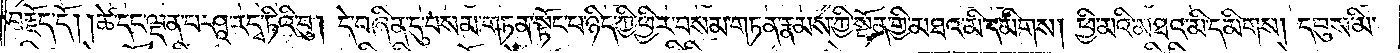བརྗོད་དོ། །ཚེ་དང་ལྡན་པ་ཤཱ་ར་དྭ་ཏིའི་བུ། དེ་བཞིན་དུ་བསམ་གཏན་སྟོང་པ་ཉིད་ཀྱི་ཕྱིར་བསམ་གཏན་རྣམས་ཀྱི་སྔོན་གྱི་མཐའ་མི་དམིགས། ཕྱི་མའི་མཐའ་མི་དམིགས། དབུས་མི་
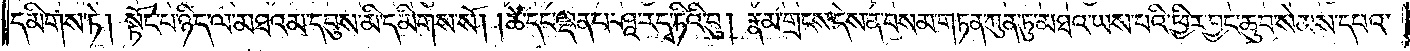དམིགས་ཏེ། སྟོང་པ་ཉིད་ལ་མཐའམ་དབུས་མི་དམིགས་སོ། །ཚེ་དང་ལྡན་པ་ཤཱ་ར་དྭ་ཏིའི་བུ། རྣམ་གྲངས་དེས་ན་བསམ་གཏན་ཀུན་ཏུ་མཐའ་ཡས་པའི་ཕྱིར་བྱང་ཆུབ་སེམས་དཔའ་
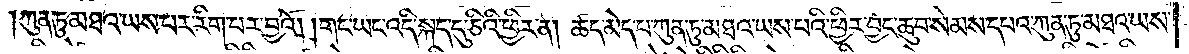ཀུན་ཏུ་མཐའ་ཡས་པར་རིག་པར་བྱའོ། །གང་ཡང་འདི་སྐད་དུ་ཅིའི་ཕྱིར་ན། ཚད་མེད་པ་ཀུན་ཏུ་མཐའ་ཡས་པའི་ཕྱིར་བྱང་ཆུབ་སེམས་དཔའ་ཀུན་ཏུ་མཐའ་ཡས་
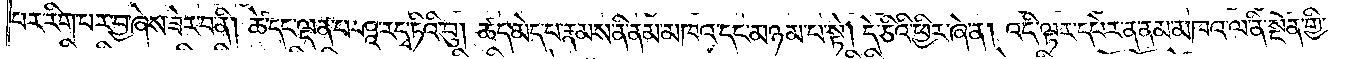པར་རིག་པར་བྱ་ཞེས་ཟེར་བ་ནི། ཚེ་དང་ལྡན་པ་ཤཱ་ར་དྭ་ཏིའི་བུ། ཚད་མེད་པ་རྣམས་ནི་ནམ་མཁའ་དང་མཉམ་པ་སྟེ། དེ་ཅིའི་ཕྱིར་ཞེ་ན། འདི་ལྟར་དཔེར་ན་ནམ་མཁའ་ལ་ནི་སྔོན་གྱི་
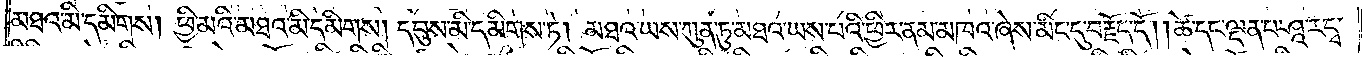མཐའ་མི་དམིགས། ཕྱི་མའི་མཐའ་མི་དམིགས། དབུས་མི་དམིགས་ཏེ། མཐའ་ཡས་ཀུན་ཏུ་མཐའ་ཡས་པའི་ཕྱིར་ནམ་མཁའ་ཞེས་མིང་དུ་བརྗོད་དོ། །ཚེ་དང་ལྡན་པ་ཤཱ་ར་དྭ་
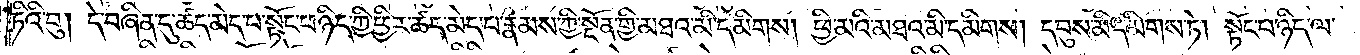ཏིའི་བུ། དེ་བཞིན་དུ་ཚད་མེད་པ་སྟོང་པ་ཉིད་ཀྱི་ཕྱིར་ཚད་མེད་པ་རྣམས་ཀྱི་སྔོན་གྱི་མཐའ་མི་དམིགས། ཕྱི་མའི་མཐའ་མི་དམིགས། དབུས་མི་དམིགས་ཏེ། སྟོང་པ་ཉིད་ལ་
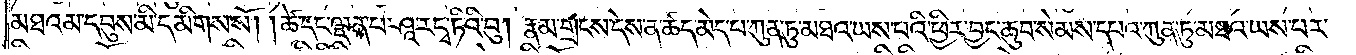མཐའམ་དབུས་མི་དམིགས་སོ། །ཚེ་དང་ལྡན་པ་ཤཱ་ར་དྭ་ཏིའི་བུ། རྣམ་གྲངས་དེས་ན་ཚད་མེད་པ་ཀུན་ཏུ་མཐའ་ཡས་པའི་ཕྱིར་བྱང་ཆུབ་སེམས་དཔའ་ཀུན་ཏུ་མཐའ་ཡས་པར་
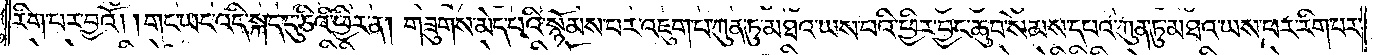རིག་པར་བྱའོ། །གང་ཡང་འདི་སྐད་དུ་ཅིའི་ཕྱིར་ན། གཟུགས་མེད་པའི་སྙོམས་པར་འཇུག་པ་ཀུན་ཏུ་མཐའ་ཡས་པའི་ཕྱིར་བྱང་ཆུབ་སེམས་དཔའ་ཀུན་ཏུ་མཐའ་ཡས་པར་རིག་པར་
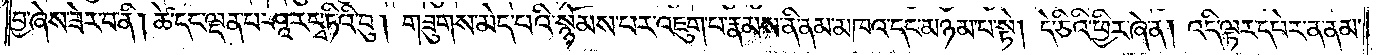བྱ་ཞེས་ཟེར་བ་ནི། ཚེ་དང་ལྡན་པ་ཤཱ་ར་དྭ་ཏིའི་བུ། གཟུགས་མེད་པའི་སྙོམས་པར་འཇུག་པ་རྣམས་ནི་ནམ་མཁའ་དང་མཉམ་པ་སྟེ། དེ་ཅིའི་ཕྱིར་ཞེ་ན། འདི་ལྟར་དཔེར་ན་ནམ་
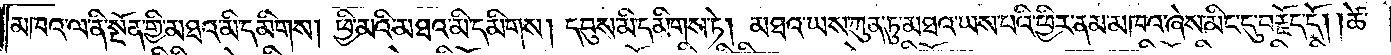མཁའ་ལ་ནི་སྔོན་གྱི་མཐའ་མི་དམིགས། ཕྱི་མའི་མཐའ་མི་དམིགས། དབུས་མི་དམིགས་ཏེ། མཐའ་ཡས་ཀུན་ཏུ་མཐའ་ཡས་པའི་ཕྱིར་ནམ་མཁའ་ཞེས་མིང་དུ་བརྗོད་དོ། །ཚེ་
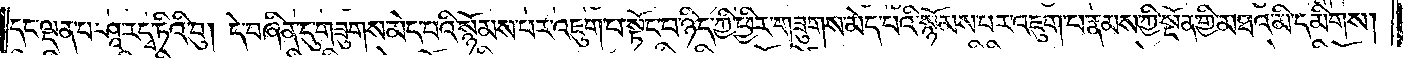དང་ལྡན་པ་ཤཱ་ར་དྭ་ཏིའི་བུ། དེ་བཞིན་དུ་གཟུགས་མེད་པའི་སྙོམས་པར་འཇུག་པ་སྟོང་པ་ཉིད་ཀྱི་ཕྱིར་གཟུགས་མེད་པའི་སྙོམས་པར་འཇུག་པ་རྣམས་ཀྱི་སྔོན་གྱི་མཐའ་མི་དམིགས།
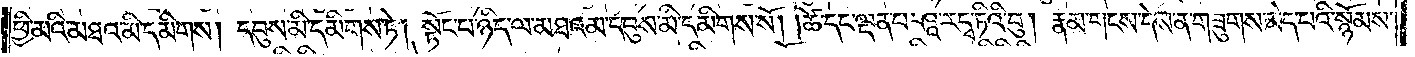ཕྱི་མའི་མཐའ་མི་དམིགས། དབུས་མི་དམིགས་ཏེ། སྟོང་པ་ཉིད་ལ་མཐའམ་དབུས་མི་དམིགས་སོ། །ཚེ་དང་ལྡན་པ་ཤཱ་ར་དྭ་ཏིའི་བུ། རྣམ་གྲངས་དེས་ན་གཟུགས་མེད་པའི་སྙོམས་
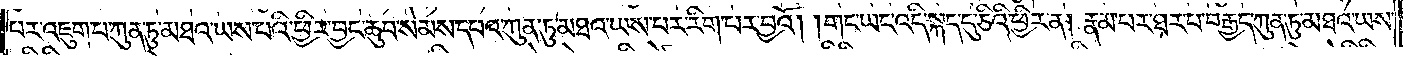པར་འཇུག་པ་ཀུན་ཏུ་མཐའ་ཡས་པའི་ཕྱིར་བྱང་ཆུབ་སེམས་དཔའ་ཀུན་ཏུ་མཐའ་ཡས་པར་རིག་པར་བྱའོ། །གང་ཡང་འདི་སྐད་དུ་ཅིའི་ཕྱིར་ན། རྣམ་པར་ཐར་པ་བརྒྱད་ཀུན་ཏུ་མཐའ་ཡས་
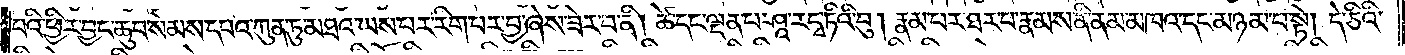པའི་ཕྱིར་བྱང་ཆུབ་སེམས་དཔའ་ཀུན་ཏུ་མཐའ་ཡས་པར་རིག་པར་བྱ་ཞེས་ཟེར་བ་ནི། ཚེ་དང་ལྡན་པ་ཤཱ་ར་དྭ་ཏིའི་བུ། རྣམ་པར་ཐར་པ་རྣམས་ནི་ནམ་མཁའ་དང་མཉམ་པ་སྟེ། དེ་ཅིའི་
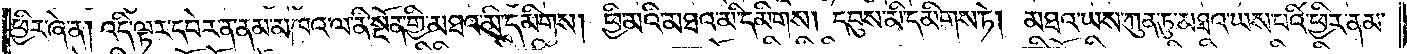ཕྱིར་ཞེ་ན། འདི་ལྟར་དཔེར་ན་ནམ་མཁའ་ལ་ནི་སྔོན་གྱི་མཐའ་མི་དམིགས། ཕྱི་མའི་མཐའ་མི་དམིགས། དབུས་མི་དམིགས་ཏེ། མཐའ་ཡས་ཀུན་ཏུ་མཐའ་ཡས་པའི་ཕྱིར་ནམ་
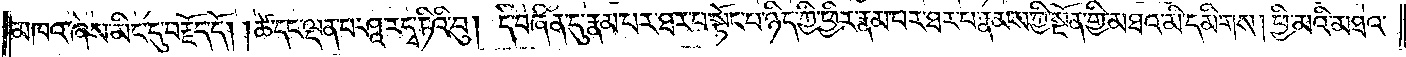མཁའ་ཞེས་མིང་དུ་བརྗོད་དོ། །ཚེ་དང་ལྡན་པ་ཤཱ་ར་དྭ་ཏིའི་བུ། དེ་བཞིན་དུ་རྣམ་པར་ཐར་པ་སྟོང་པ་ཉིད་ཀྱི་ཕྱིར་རྣམ་པར་ཐར་བ་རྣམས་ཀྱི་སྔོན་གྱི་མཐའ་མི་དམིགས། ཕྱི་མའི་མཐའ་
